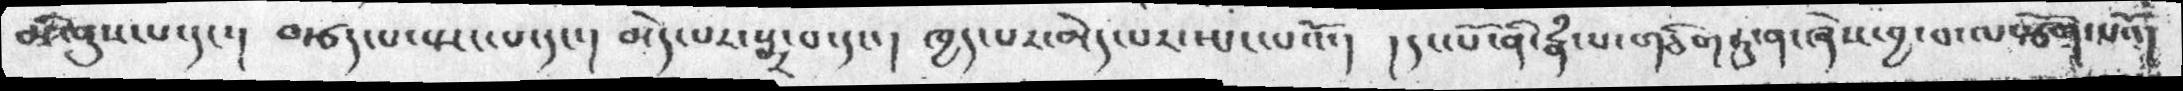མི་ནུས་པ་དང་།   བརྩད་པ་སྤང་པ་དང་།  མེད་པར་སྨྲ་བ་དང་ ། ཁྱད་པར་མེད་པར་སྤང་པའོ་།   ། དང་པོ་ནི་རྣཾ་པ་གཅིག་ཏུ་ན་ཞེས་བྱ་བ་ལསྩོག་པའོ།
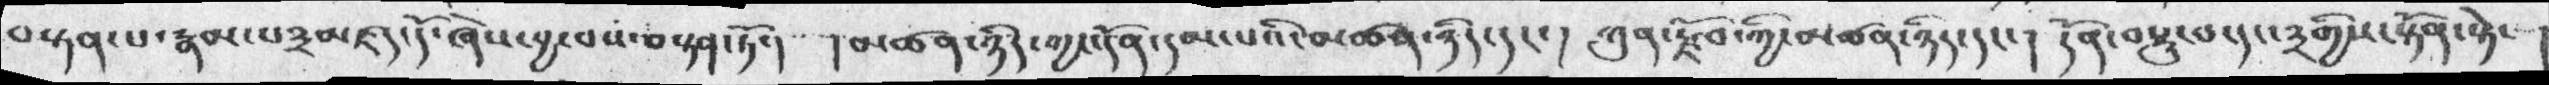བསྟན་པ་རྣམ་པ༣མཛད་དོ་ཞེས་བྱ་བས་བསྟན་ཏོ་།   །མཚན་ཉིད་གྱང་དོན་དམ་པའི་མཚན་ཉིད་དང་ ། ཀུན་རྗོབ་ཀྱི་མཚན་ཉིད་དང་། དོན་བསྡུ་བ་དང་༣གྱིས་སྟོན་སྟེ་
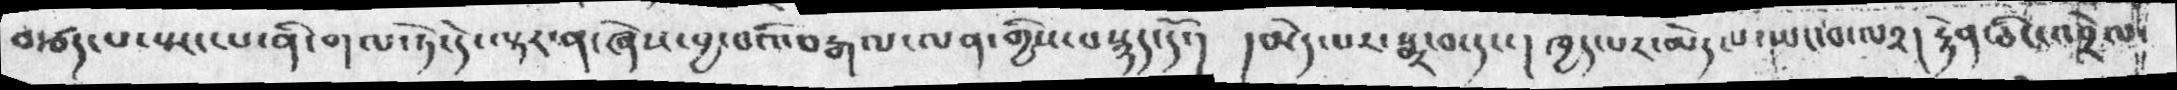བརྩད་པ་སྤང་པ་ནི་གལ་ཏེ་དེ་ལྟར་ན་ཞེས་བྱ་བའི་བརྒལ་ལན་གྱིས་བསྙད་དོ་།    །མེད་པར་སྨྲ་བ་དང་ །  ཁྱད་པར་མེད་པ་་སྤང་བ་ལ༢།  རྟེན་ཅིང་འབྲེལ་
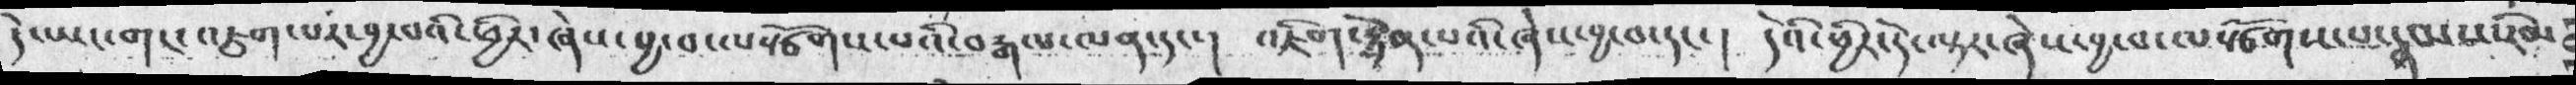དེ་ཡང་གང་འཇུག་པར་བྱ་བའི་ཕྱིར་ཞེས་བྱ་བ་ལསྩོགས་པའི་བརྒལ་ལན་དང་། འཇིག་རྟེན་པའི་ཞེས་བྱ་བ་དང་།  དེའི་ཕྱིར་དེ་ལྟར་ཞེས་བྱ་བ་ལསྩོགས་པ་རྣམས་རིམ
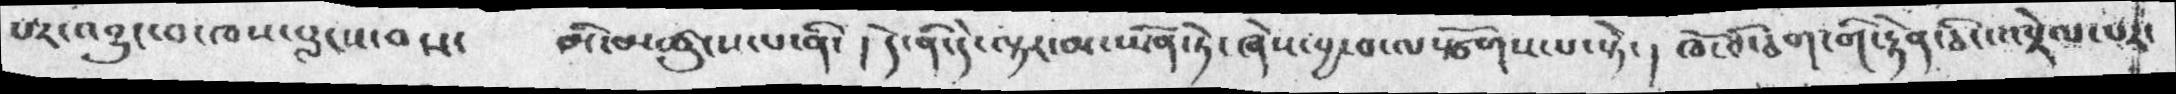པར་འབྱུང་བ་ཁས་བླངས་བས་། མི་མཚུངས་པ་ནི་ ། དེ་ནི་དེ་ལྟར་མ་ཡིན་ཏེ་ཞེས་བྱ་བ་ལསྩོགས་པ་སྟེ་ ། ཁོ་བོ་ཅག་གི་རྟེན་ཅིང་འབྲེལ་བར་
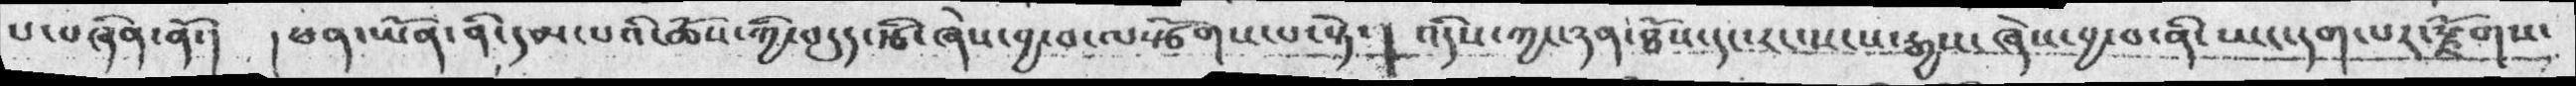པ་བཞིན་ནོ་། །ཕན་ཡོན་ནི་དམ་པའི་ཆོས་ཀྱི་བདུད་རྩི་ཞེས་བྱ་བ་ལསྩོགས་པ་སྟེ་།  འདིས་ཀྱང་ཉན་ཐོས་དང་རང་སངས་རྒྱས་ཞེས་བྱ་བ་ནི་ཡང་དག་པར་རྫོགས་
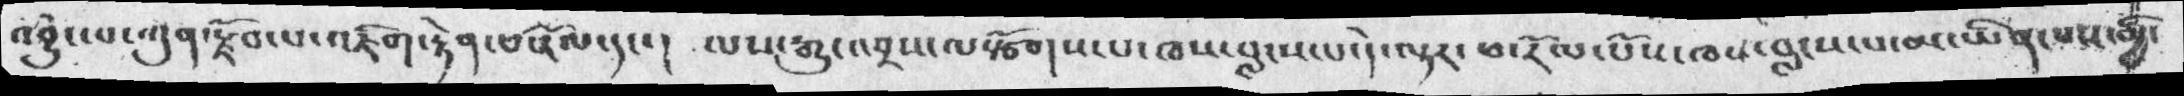འབྱུང་པ་ཀུན་རྫོབ་པ་འཇིག་རྟེན་བནོལ་དང་།  ལས་རྒྱུ་འབྲས་ལསྩོགས་པ་ཁས་བླངས་པ་དེ་ལྟར་ཕ་རོལ་པོས་ཁས་བླངས་པ་མ་ཡིན་པས་མྱི་
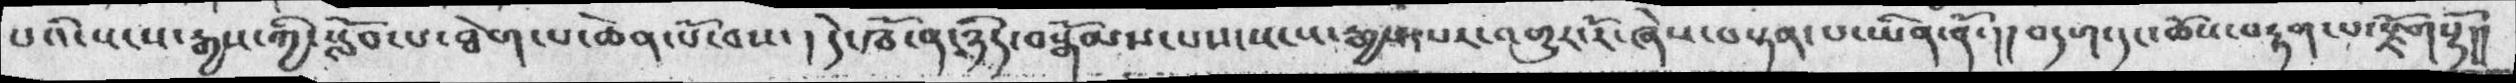པའི་སངས་རྒྱས་ཀྱི་སློབ་པ་ཐེག་པ་ཆེན་པོ་བས་། དེ་ཁོ་ན་ཉིད་བསྒོམས་པས་སངས་རྒྱས་པར་འགྱུར་རོ་ཞེས་བསྟན་པ་ཡིན་ནོ་།།བདག་དང་ཆོས་བརྟན་པ་རྫོགསྷོ།།
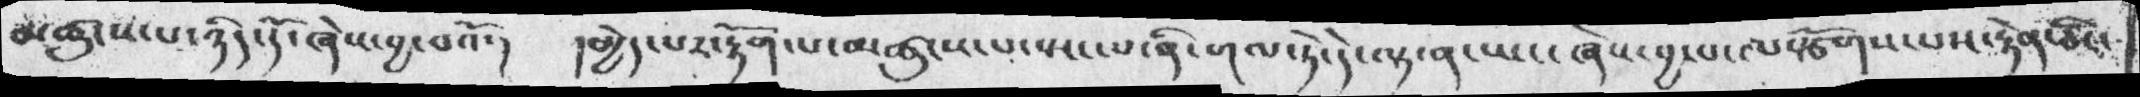མཚུངས་པ་ཉིད་དོ་ཞེས་བྱ་བའོ་།  །མྱེད་པར་རྟོག་པ་མཚུངས་པ་སྤང་པ་ནི་གལ་ཏེ་དེ་ལྟ་ན་ཡང་ཞེས་བྱ་བ་ལསྩོགས་པས་རྟེན་ཅིང་
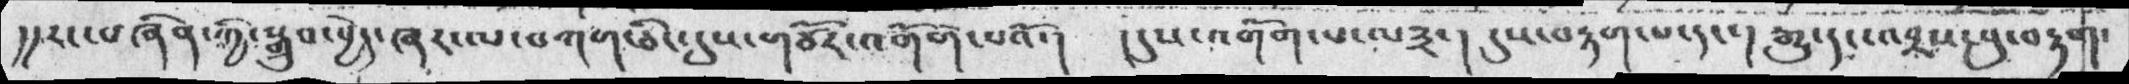།། རང་བཞིན་ཀྱི་སྒྲུབ་བྱེད་ཞར་ལ་བཀག་ཅིང་དུས་གཙོར་འགོག་པའོ་།  ། དུས་འགོག་པ་ལ༣་། དུས་བརྟག་པ་དང་ ། རྒྱུ་དང་འབྲས་བུ་བརྟག་
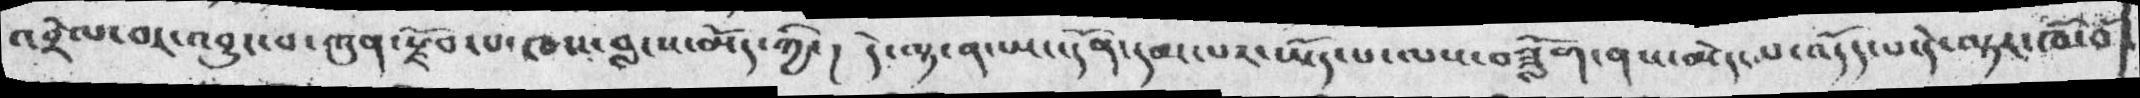འབྲེལ་བར་འབྱུང་བ་ཀུན་སྫོབ་པ་ཁས་བླངས་མོད་ཀྱི་ ། དེ་ལྟ་ན་ཡང་དོན་དམ་པར་ཡོད་པ་ལས་བཟློག་ནས་མེད་པ་འདོད་པ་དེ་ལྟར་ཁོ་བོ་
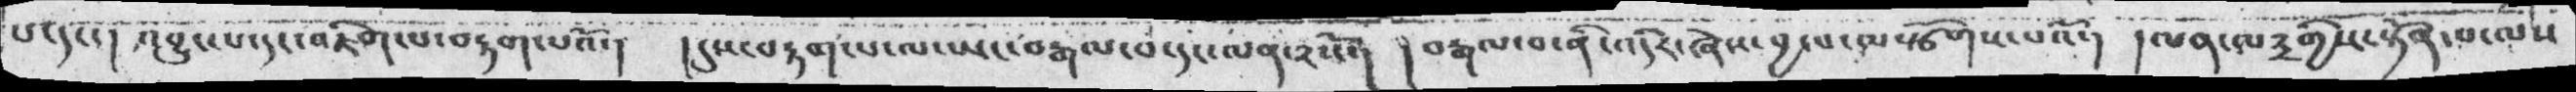པ་དང་། འབྱུང་པ་དང་འཇིག་པ་བརྟག་པའོ་།  །དུས་བརྟག་པ་ལས་ཡང་བརྒལ་བ་དང་ལན་༢སོ་།    ། བརྒལ་བ་ནི་འདིར་ཞེས་བྱ་བ་ལསྩོགས་པའོ་།  ། ལན་ལ༣གྱིས་སྟོན་པ་ལས་
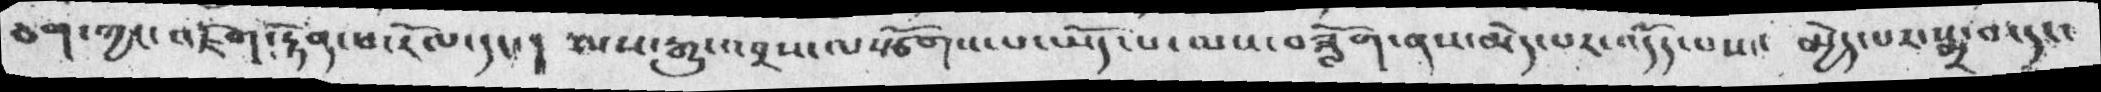ཅག་ཀྱང་འཇིག་རྟེན་ཕ་རོལ་དང་།  ལས་རྒྱུ་འབྲས་ལསྩོགས་པ་ཡོད་པ་ལས་བཟློག་ནས་མེད་པར་འདོད་པས་  མྱེད་པར་སྨྲ་བ་དང་
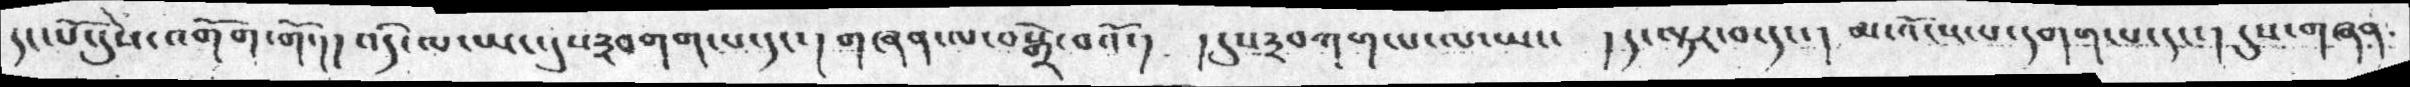དང་པོ་དུས་འགོག་གོ་།། འདི་ལ་ཡང་དུས་༣བགག་པ་དང་། གཞན་ལ་བསྒྲེ་བའོ་།  །དུས་༣བཀག་པ་་ལ་ཡང་  །ད་ལྟར་བ་དང་།  མ་འོངས་པ་དགག་པ་དང་།  དུས་གཞན
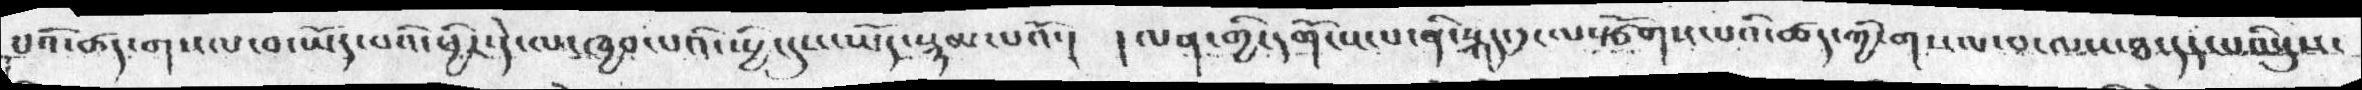པའི་ཚད་གསལ་བ་ཡོད་པའི་ཕྱིར་ད་ལ་ཁྱབ་པའི་སྤྱི་དུས་ཡོད་སྙམ་པའོ་། །ལན་གྱི་དགོངས་པ་ནི་སྐད་༡་ལསྩོགས་པའི་ཚད་ཀྱི་གསལ་བ་ལས་ཐ་དད་པའི་དུས་
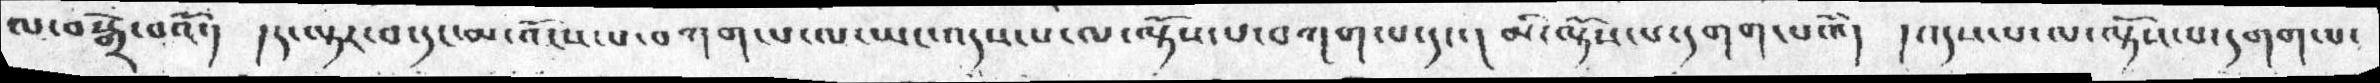ལ་བསྒྲེ་བའོ་།   །ད་ལྟར་བ་དང་མ་འོངས་པ་བཀག་པ་ལ་ཡང་འདས་པ་ལ་ལྟོས་པ་བཀག་པ་དང་ ། མི་ལྟོས་པ་དགག་པའི།   །འདས་པ་ལ་ལྟོས་པ་དགག་པ་
